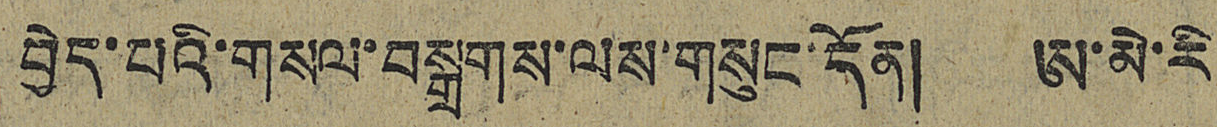བྱེད་པའི་གསལ་བསྒྲགས་ལས་གསུང་དོན། ཨ་མེ་རི
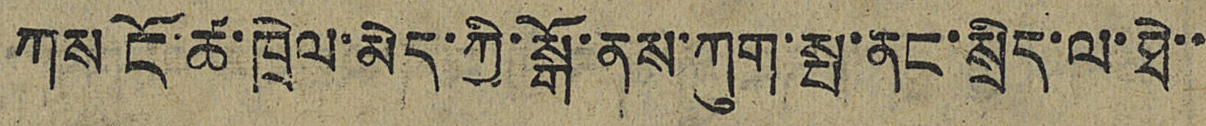ཀས ངོ་ཚ་ཁྲེལ་མེད་ཀྱི་སྒོ་ནས་ཀུག་སྤ་ནང་སྲིད་ལ་ཐེ་་
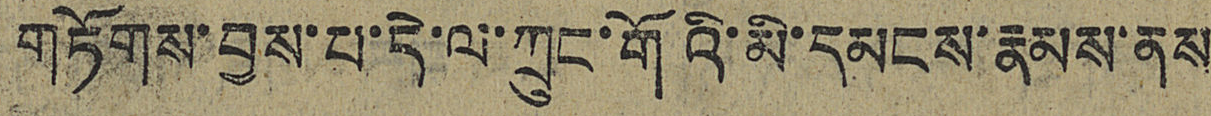གཏོགས་བྱས་པ་དེ་ལ་ཀྲུང་གོའི་མི་དམངས་རྣམས་ནས
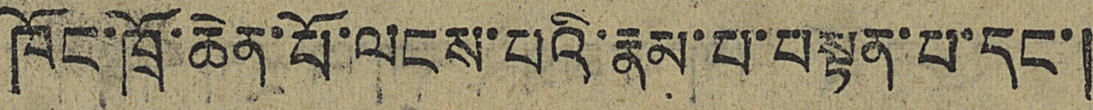ཁོང་ཁྲོ་ཆེན་པོ་ལངས་པའི་རྣམ་པ་བསྟན་པ་དང་།
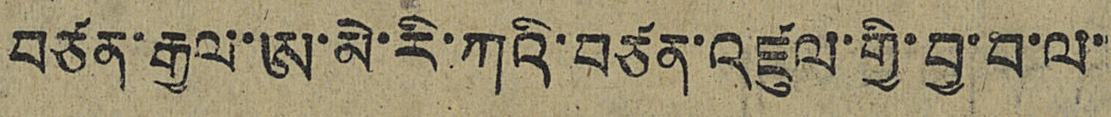བཙན་རྒྱལ་ཨ་མེ་རི་ཀའི་བཙན་འཛུལ་གྱི་བྱ་བ་ལ་
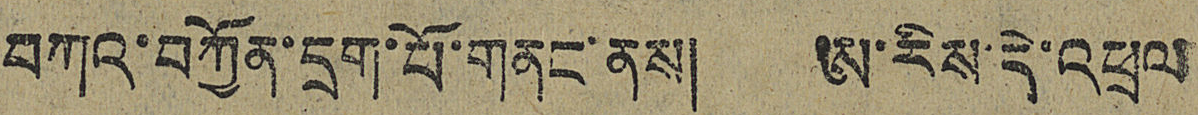བཀའ་བཀྱོན་དྲག་པོ་གནང་ནས། ཨ་རིས་དེ་འཕྲལ
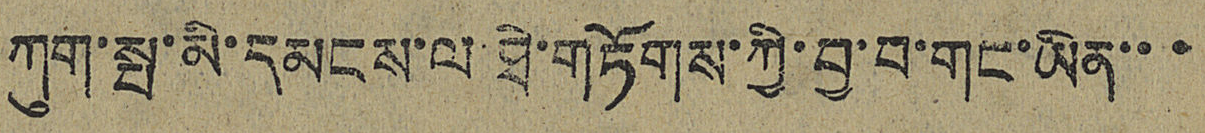ཀུག་སྤ་མི་དམངས་ལ་ཐེ་གཏོགས་ཀྱི་བྱ་བ་གང་ཡིན་་་
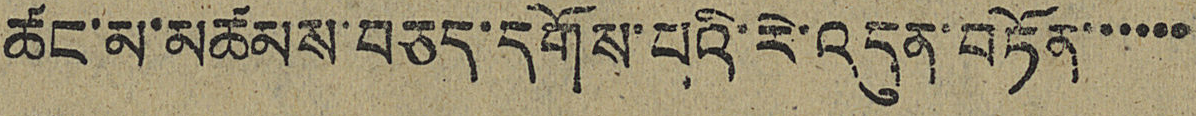ཚང་མ་མཚམས་བཅད་དགོས་པའི་རེ་འདུན་བཏོན་་་་་་
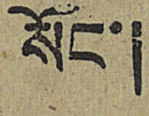སོང་།
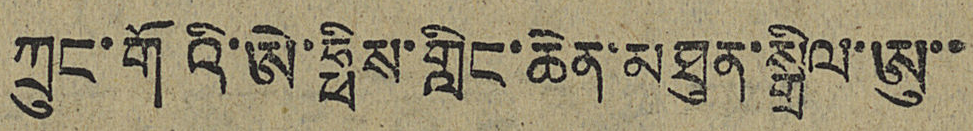ཀྲུང་གོའི་ཨེ་ཧྥིས་གླིང་ཆེན་མཐུན་སྒྲིལ་ཨུ་་
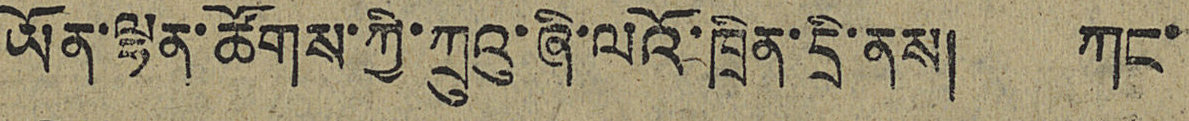ཡོན་ལྷན་ཚོགས་ཀྱི་ཀྲུའུ་ཞི་ལའོ་ཁྲིན་དྲི་ནས། ཀང་
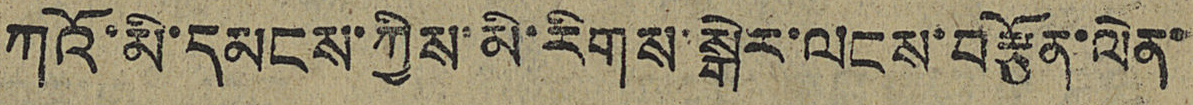ཀའོ་མི་དམངས་ཀྱིས་མི་རིགས་སྒེར་ལངས་བརྩོན་ལེན་
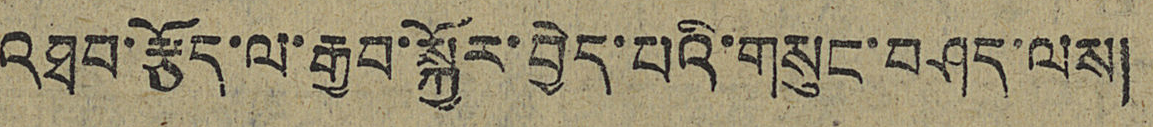འཐབ་རྩོད་ལ་རྒྱབ་སྐྱོར་བྱེད་པའི་གསུང་བཤད་ལས།
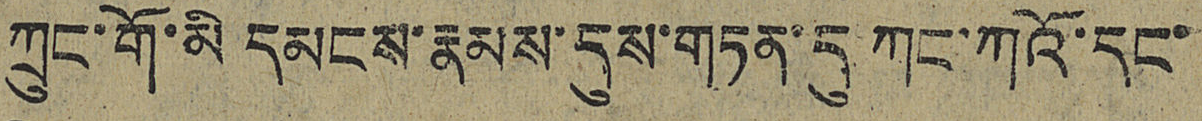ཀྲུང་གོ་མི དམངས་རྣམས་དུས་གཏན་དུ ཀང་ཀའོ་དང་
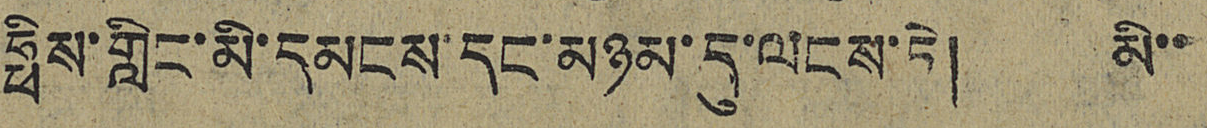ཧྥིས་གླིང་མི་དམངས་དང་མཉམ་དུ་ལངས་ཏེ། མི་་
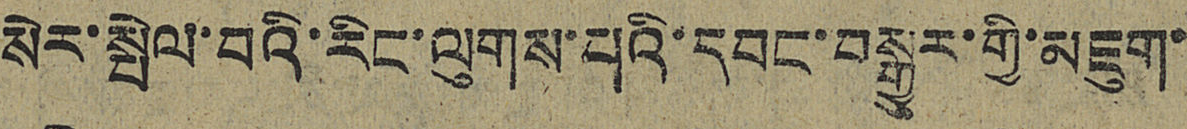སེར་སྤེལ་བའི་རིང་ལུགས་པའི་དབང་བསྒྱུར་གྱི་མཇུག་
